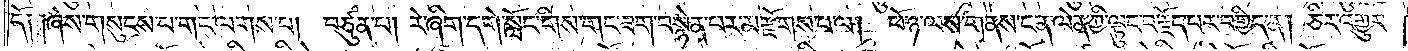དོ༑ ༑ཞེས་གསུངས་པ་གང་ལགས་པ། བཙུན་པ། རེ་ཞིག་དགེ་སློང་གིས་གང་ཟག་བསྙེན་པར་མ་རྫོགས་པ་ལ། ཕོ་ཉ་ལས་གནས་ངན་ལེན་གྱི་ལྟུང་བ་རྗོད་པར་བགྱིད་ན། ཅིར་འགྱུར་
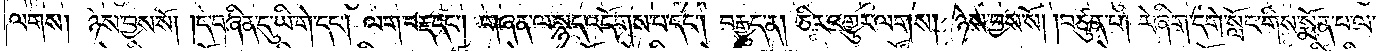ལགས། ཉེས་བྱས་སོ། །དེ་བཞིན་དུ་ཡི་གེ་དང༌། ལག་བརྡ་དང༌། གཞན་ལ་སྙད་འདོགས་པ་དང༌། བརྒྱུད་ན། ཅིར་འགྱུར་ལགས། ཉེས་བྱས་སོ། །བཙུན་པ། རེ་ཞིག་དགེ་སློང་གིས་སྨོན་པ་ལ་
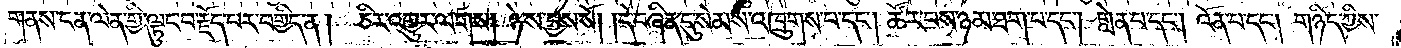གནས་ངན་ལེན་གྱི་ལྟུང་བརྗོད་པར་བགྱིད་ན། ཅིར་འགྱུར་ལགས། ཉེས་བྱས་སོ། །དེ་བཞིན་དུ་སེམས་འཁྲུགས་པ་དང༌། ཚོར་བས་ཉམ་ཐག་པ་དང༌། གླེན་པ་དང༌། འོན་པ་དང༌། གཉིད་ཀྱིས་
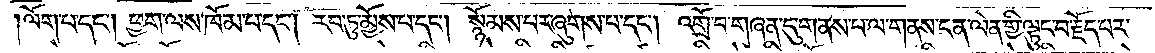ལོག་པ་དང༌། ཕྱག་ལས་ཁོམ་པ་དང༌། རབ་ཏུ་མྱོས་པ་དང༌། སྙོམས་པར་ཞུགས་པ་དང༌། འགྲོ་བ་གཞན་དུ་གནས་པ་ལ་གནས་ངན་ལེན་གྱི་ལྟུང་བ་རྗོད་པར་
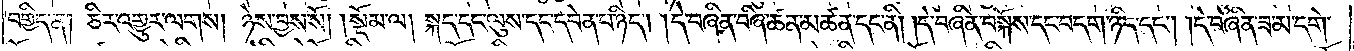བགྱིད་ན། ཅིར་འགྱུར་ལགས། ཉེས་བྱས་སོ།    །སྡོམ་ལ། སྐད་དང་ལུས་དང་དབེན་པ་ཉིད། །དེ་བཞིན་བཞི་ཚན་མཚན་དང་ནི། །དེ་བཞིན་བསྐོས་དང་བདག་ཉིད་དང༌། །དེ་བཞིན་ཟ་མ་དགེ་
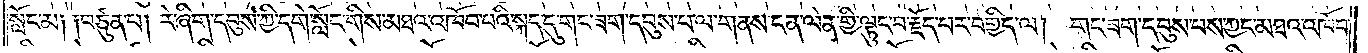སློང་མ༑ ༑བཙུན་པ། རེ་ཞིག་དབུས་ཀྱི་དགེ་སློང་གིས་མཐའ་འཁོབ་པའི་སྐད་དུ་གང་ཟག་དབུས་པ་ལ་གནས་ངན་ལེན་གྱི་ལྟུང་བ་རྗོད་པར་བགྱིད་ལ། གང་ཟག་དབུས་པས་ཀྱང་མཐའ་འཁོབ་
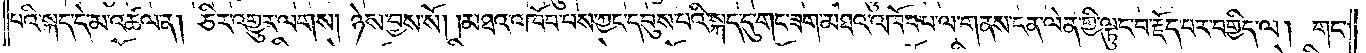པའི་སྐད་དེ་མ་འཚལ་ན། ཅིར་འགྱུར་ལགས། ཉེས་བྱས་སོ། །མཐའ་འཁོབ་པས་ཀྱང་དབུས་པའི་སྐད་དུ་གང་ཟག་མཐའ་འཁོབ་པ་ལ་གནས་ངན་ལེན་གྱི་ལྟུང་བ་རྗོད་པར་བགྱིད་ལ། གང་
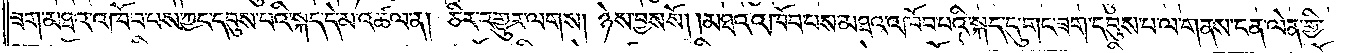ཟག་མཐའ་འཁོབ་པས་ཀྱང་དབུས་པའི་སྐད་དེ་མ་འཚལ་ན། ཅིར་འགྱུར་ལགས། ཉེས་བྱས་སོ། །མཐའ་འཁོབ་པས་མཐའ་འཁོབ་པའི་སྐད་དུ་གང་ཟག་དབུས་པ་ལ་གནས་ངན་ལེན་གྱི་
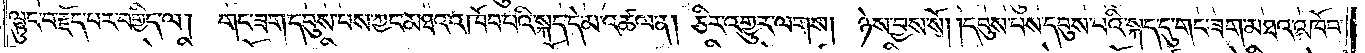ལྟུང་བ་རྗོད་པར་བགྱིད་ལ། གང་ཟག་དབུས་པས་ཀྱང་མཐའ་འཁོབ་པའི་སྐད་དེ་མ་འཚལ་ན། ཅིར་འགྱུར་ལགས། ཉེས་བྱས་སོ། །དབུས་པས་དབུས་པའི་སྐད་དུ་གང་ཟག་མཐའ་འཁོབ་
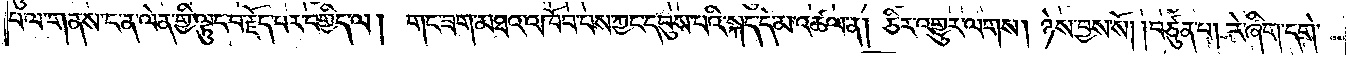པ་ལ་གནས་ངན་ལེན་གྱི་ལྟུང་བ་རྗོད་པར་བགྱིད་ལ། གང་ཟག་མཐའ་འཁོབ་པས་ཀྱང་དབུས་པའི་སྐད་དེ་མ་འཚལ་ན། ཅིར་འགྱུར་ལགས། ཉེས་བྱས་སོ། །བཙུན་པ། རེ་ཞིག་དགེ་
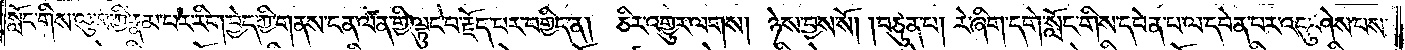སློང་གིས་ལུས་ཀྱི་རྣམ་པར་རིག་བྱེད་ཀྱི་གནས་ངན་ལེན་གྱི་ལྟུང་བ་རྗོད་པར་བགྱིད་ན། ཅིར་འགྱུར་ལགས། ཉེས་བྱས་སོ། །བཙུན་པ། རེ་ཞིག་དགེ་སློང་གིས་དབེན་པ་ལ་དབེན་པར་འདུ་ཤེས་པས་
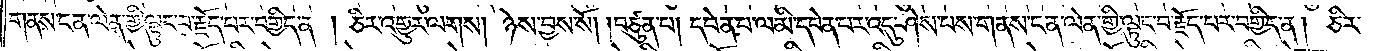གནས་ངན་ལེན་གྱི་ལྟུང་བ་རྗོད་པར་བགྱིད་ན། ཅིར་འགྱུར་ལགས། ཉེས་བྱས་སོ། །བཙུན་པ། དབེན་པ་ལ་མི་དབེན་པར་འདུ་ཤེས་པས་གནས་ངན་ལེན་གྱི་ལྟུང་བ་རྗོད་པར་བགྱིད་ན། ཅིར་
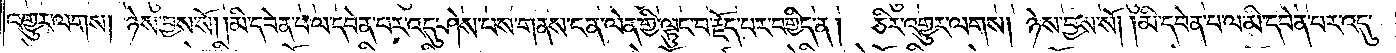འགྱུར་ལགས། ཉེས་བྱས་སོ། །མི་དབེན་པ་ལ་དབེན་པར་འདུ་ཤེས་པས་གནས་ངན་ལེན་གྱི་ལྟུང་བ་རྗོད་པར་བགྱིད་ན། ཅིར་འགྱུར་ལགས། ཉེས་བྱས་སོ། །མི་དབེན་པ་ལ་མི་དབེན་པར་འདུ་
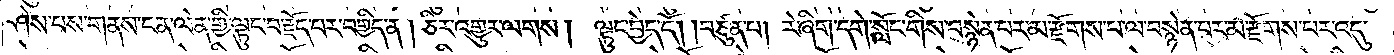ཤེས་པས་གནས་ངན་ལེན་གྱི་ལྟུང་བ་རྗོད་པར་བགྱིད་ན། ཅིར་འགྱུར་ལགས། ལྟུང་བྱེད་ངོ༌། །བཙུན་པ། རེ་ཞིག་དགེ་སློང་གིས་བསྙེན་པར་མ་རྫོགས་པ་ལ་བསྙེན་པར་མ་རྫོགས་པར་འདུ་
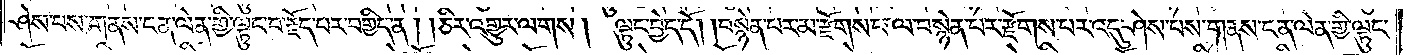ཤེས་པས་གནས་ངན་ལེན་གྱི་ལྟུང་བ་རྗོད་པར་བགྱིད་ན། །ཅིར་འགྱུར་ལགས། ལྟུང་བྱེད་དོ། །བསྙེན་པར་མ་རྫོགས་པ་ལ་བསྙེན་པར་རྫོགས་པར་འདུ་ཤེས་པས་གནས་ངན་ལེན་གྱི་ལྟུང་
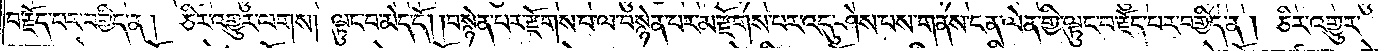བརྗོད་པར་བགྱིད་ན། ཅིར་འགྱུར་ལགས། ལྟུང་བ་མེད་དོ། །བསྙེན་པར་རྫོགས་པ་ལ་བསྙེན་པར་མ་རྫོགས་པར་འདུ་ཤེས་པས་གནས་ངན་ལེན་གྱི་ལྟུང་བ་རྗོད་པར་བགྱིད་ན། ཅིར་འགྱུར་
